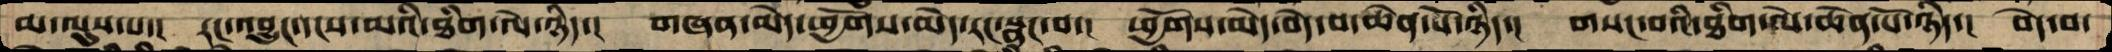མ་ལུས་པ་།  རང་འབྱུང་དངས་མའི་ཐིག་ལེ་ཉིད་།  གཞན་མེད་ཕྱོགས་མེད་རང་སྣང་བ་།  ཕྱོགས་མེད་བདེ་བ་ཆེན་པོ་ཉིད་།   གསང་བའི་ཐིག་ལེ་ཆེན་པོ་ཉིད་།  བདེ་བ་
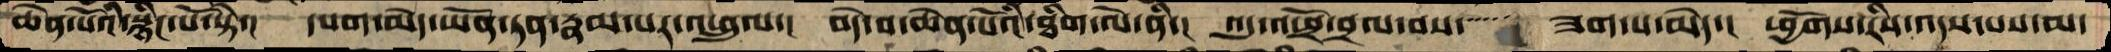ཆེན་པོའི་སྙིང་པོ་སྟེ་།  དཔག་མེད་ཡོན་ཏན་རྣམ་པར་འཕྲུལ་།  བདེ་བ་ཆེན་པོའི་ཐིག་ལེ་ནི་།  འདུ་འཕྲོ་བྲལ་བས་་་་་་ ཟག་པ་མེད་།  ཕྱོགས་རིས་འདས་པས་མ་
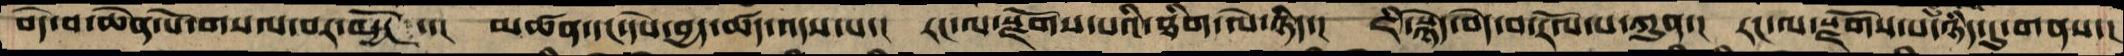བདེ་བ་ཆེན་པོ་གསལ་བར་མྱོང་་།  མཚན་དང་དཔེ་བྱད་ཚད་འདས་པ་།  རང་ལ་སྫོགས་པའི་ཐིག་ལེ་ཉིད་།  ཇི་སྙེད་བདེ་བ་རོལ་པ་ཀུན་།  རང་ལ་སྫོགས་པ་ཉིད་དུ་གནས་།
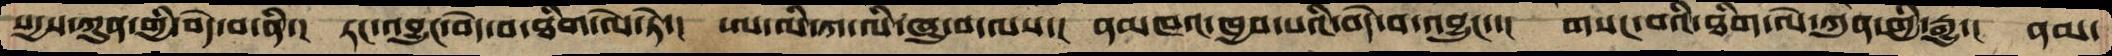སདྱས་ཀུན་གྱི་བདེ་བ་ནི་།  རང་འབྱུང་བདེ་བ་ཐིག་ལེ་ཏེ་།  ཨ་ལི་ཀ་ལི་ཞུ་བ་ལས་།  ནམཁའ་ཁྱབ་པའི་བདེ་བ་འབྱུང་་།  གསང་བའི་ཐིག་ལེ་ཀུན་གྱི་རྒྱུ་།  ནམ་
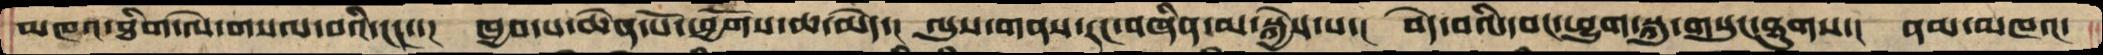མཁའ་ཐིག་ལེ་གསལ་བའི་ངང་་།  ཁྱབ་པ་ཆེན་པོ་ཕྱོགས་ཆ་མེད་།  ལུས་གནས་རང་བཞིན་མ་སྐྱེས་པ་།  བདེ་བའི་དབང་ཕྱུག་སྐུ་གསུང་ཐུགས་།  ནམ་མཁའ་
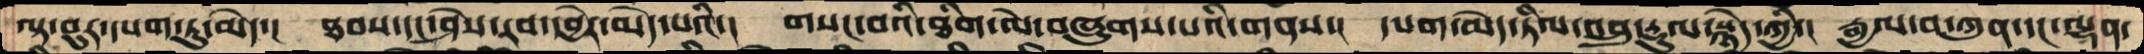ལྟ་བུར་དཔག་ཏུ་མེད་།  ཐབས་དང་ཤེས་རབ་དབྱེར་མེད་པའི་།  གསང་བའི་ཐིག་ལེ་བཞུགས་པའི་གནས་།  དཔག་མེད་ཏིལ་འབྲུ་རྡུལ་སྙེད་ཀྱི་།  རྒྱལ་བ་ཀུན་དང་ལྷན་
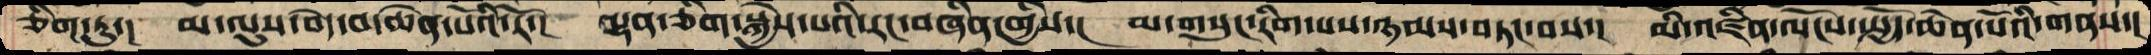ཅིག་ཏུ་།  མ་ལུས་བདེ་བ་ཆེན་པོའི་རོ་།  ལྷན་ཅིག་སྐྱེས་པའི་རང་བཞིན་གྱིས་།  མ་གསུང་རིག་པས་ཉམས་བཏང་བས་།  མི་འཛིན་ལོངས་སྤྱོད་ཆེན་པོའི་གནས་།
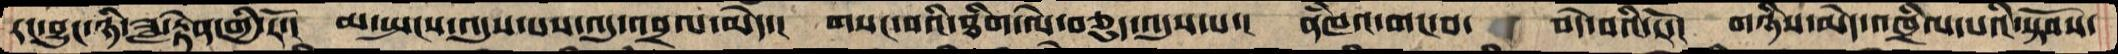རང་བྱུང་ཉི་ཟླ་རྟེན་གྱི་རོ་།  མ་སྤངས་འདུས་པས་འདུ་འབྲལ་མེད་།  གསང་བའི་ཐིག་ལེ་བཅུད་འདུས་པ་།  ནཾཁའ་གང་བ་  བདེ་བའི་རོ་།  གཉིས་མེད་འཁྲིལ་པའི་སྟོབས་
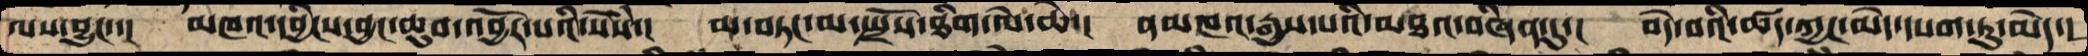ལས་བྱུང་་།   མཁའ་དབྱིངས་བྱང་ཆུབ་འབྱོར་པའི་སེཾས་།   མ་བཏང་མ་སྤྲོས་ཐིག་ལེ་ཆེ་།  ནམཁའ་རྒྱས་པའི་མཐའ་བཞིན་དུ་།  བདེ་བའི་ཚད་ཀྱང་མེད་དཔག་ཏུ་མེད་།
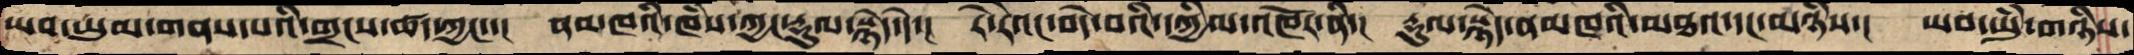ཡབ་ཡུམ་གནས་པའི་གྲངས་ཚད་ཀྱང་་།  ནམཁའི་ཁཾས་ཀྱང་རྡུལ་སྙེད་དེ་།  རེ་རེའང་བདེ་བའི་དཀྱིལ་འཁོར་ནི་།  རྡུལ་སྙེད་ནམཁའི་མཐའ་དང་མཉཾས་།  ཡབ་ཡུཾ་གཉིས་
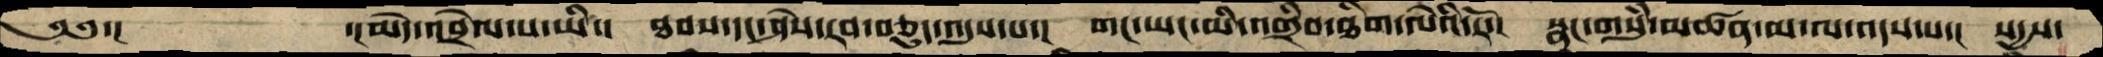༄༅་།           ་།མེད་འབྲེལ་པ་ཡི་།  ཐབས་དང་ཤེས་རབ་བཅུད་འདུས་པ་།  གང་ཡང་མི་འགྲིབ་ཐིག་ལེའི་རོ་།  སྣང་གསུཾ་མཚན་མ་ལ་འདས་པ་།  སདྱས་
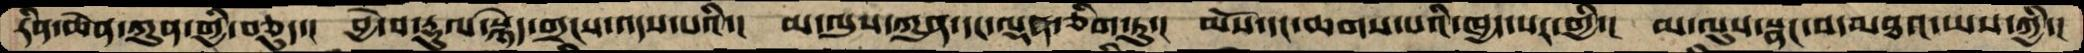རིན་ཆེན་ཀུན་གྱི་བཅུད་།   བྱེ་བ་རྡུལ་སྙེད་གྲངས་འདས་པའི་།  མ་ལུས་ཀུན་དང་ལྷན་ཅིག་ཏུ་།  མོས་དང་ཆགས་པའི་ཁྱད་པར་གྱི་།  མ་ལུས་སྣང་བ་མཐའ་ཡས་ཀྱི་།
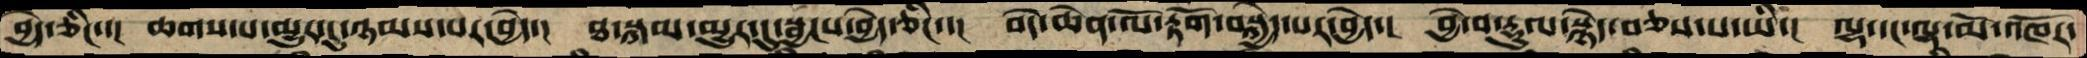བྱེད་ཅིང་་།   ཆགས་པ་མྱུར་དུ་ཉམས་པར་བྱེད་།  ཐ་སྐམ་མྱུར་དུ་སྦྱངས་བྱེད་ཅིང་་།  བདེ་ཆེན་ལོ་རྟོག་བསྐྱེད་པར་བྱེད་།  བྱེ་བ་རྡུལ་སྙེད་བཅས་པ་ཡི་།  ལྷ་དང་ལྷ་མོ་འཁོར་
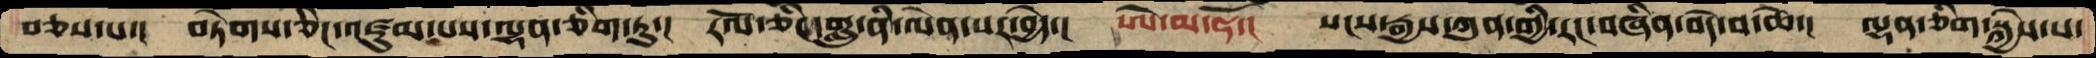བཅས་པ་།   བཏེགས་ཅིང་འཛུམ་པས་ལྷན་ཅིག་ཏུ་།  རོལ་ཅིང་གླུ་ནི་ལེན་པར་བྱེད་།   ཨེ་མ་ཧོ་།   སངས་རྒྱས་ཀུན་གྱི་རང་བཞིན་བདེ་བ་ཆེ་།  ལྷན་ཅིག་སྐྱེས་པ་
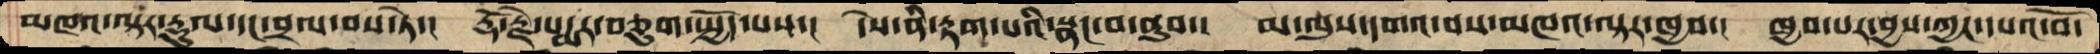མཁའ་ལྟར་རྡུལ་དང་བྲལ་བས་ཏེ་།  རྡོ་རྗེ་པདྨར་བཅུག་སྤྱོད་པས་།  དེས་ནི་རྟག་པའི་སྣང་བ་ནུབ་།   མ་ལུས་དགའ་བས་མཁའ་ལྟར་ཁྱབ་།  ཁྱབ་པར་བྱས་ཀྱང་དཔའ་བོ་
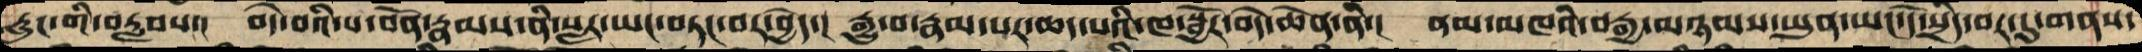རླུང་གི་བརླབས་།   བདེ་བའི་ས་བོན་རྣམས་ནི་སླར་ཡང་བཏང་བར་བྱེད་།  རྒྱུ་བ་རྣམ་པར་ཆད་པའི་ཁ་སྦྱོར་བདེ་ཆེན་ནི་།  ནམ་མཁའི་བརྒྱ་མཉམས་ཡུན་ཡང་དེ་སྲིད་བར་དུ་གནས་
